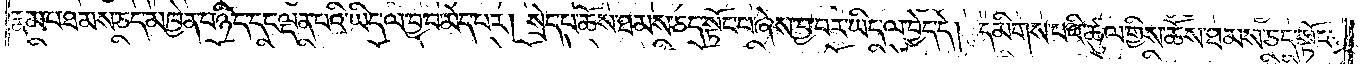རྣམ་པ་ཐམས་ཅད་མཁྱེན་པ་ཉིད་དང་ལྡན་པའི་ཡིད་ལ་བྱ་བ་མེད་པར། སྲེད་པ་ཆོས་ཐམས་ཅད་སྟོང་པ་ཞེས་བྱ་བར་ཡིད་ལ་བྱེད་དེ། དམིགས་པའི་ཚུལ་གྱིས་ཆོས་ཐམས་ཅད་སྟོང་
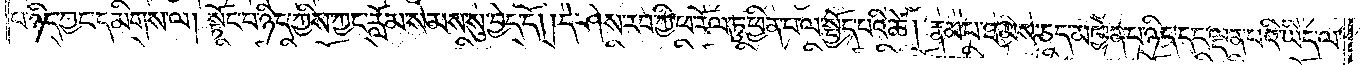པ་ཉིད་ཀྱང་དམིགས་ལ། སྟོང་པ་ཉིད་ཀྱིས་ཀྱང་རློམ་སེམས་སུ་བྱེད་དོ། །དེ་ཤེས་རབ་ཀྱི་ཕ་རོལ་ཏུ་ཕྱིན་པ་ལ་སྤྱོད་པའི་ཚེ། རྣམ་པ་ཐམས་ཅད་མཁྱེན་པ་ཉིད་དང་ལྡན་པའི་ཡིད་ལ་
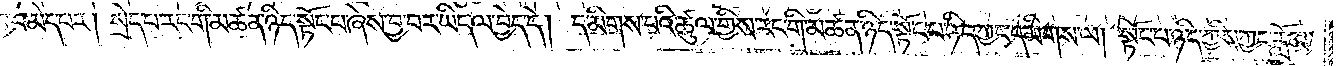བྱ་བ་མེད་པར། སྲེད་པ་རང་གི་མཚན་ཉིད་སྟོང་པ་ཞེས་བྱ་བར་ཡིད་ལ་བྱེད་དེ། དམིགས་པའི་ཚུལ་གྱིས་རང་གི་མཚན་ཉིད་སྟོང་པ་ཉིད་ཀྱང་དམིགས་ལ། སྟོང་པ་ཉིད་ཀྱིས་ཀྱང་རློམ་
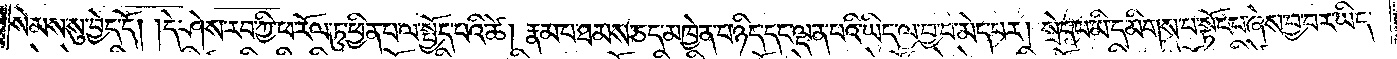སེམས་སུ་བྱེད་དོ། །དེ་ཤེས་རབ་ཀྱི་ཕ་རོལ་ཏུ་ཕྱིན་པ་ལ་སྤྱོད་པའི་ཚེ། རྣམ་པ་ཐམས་ཅད་མཁྱེན་པ་ཉིད་དང་ལྡན་པའི་ཡིད་ལ་བྱ་བ་མེད་པར། སྲེད་པ་མི་དམིགས་པ་སྟོང་པ་ཞེས་བྱ་བར་ཡིད་
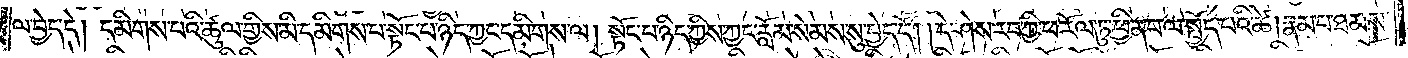ལ་བྱེད་དེ། དམིགས་པའི་ཚུལ་གྱིས་མི་དམིགས་པ་སྟོང་པ་ཉིད་ཀྱང་དམིགས་ལ། སྟོང་པ་ཉིད་ཀྱིས་ཀྱང་རློམ་སེམས་སུ་བྱེད་དོ། །དེ་ཤེས་རབ་ཀྱི་ཕ་རོལ་ཏུ་ཕྱིན་པ་ལ་སྤྱོད་པའི་ཚེ། རྣམ་པ་ཐམས་
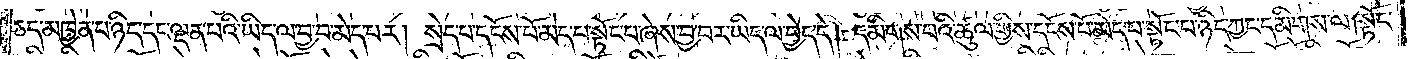ཅད་མཁྱེན་པ་ཉིད་དང་ལྡན་པའི་ཡིད་ལ་བྱ་བ་མེད་པར། སྲེད་པ་དངོས་པོ་མེད་པ་སྟོང་པ་ཞེས་བྱ་བར་ཡིད་ལ་བྱེད་དེ། དམིགས་པའི་ཚུལ་གྱིས་དངོས་པོ་མེད་པ་སྟོང་པ་ཉིད་ཀྱང་དམིགས་ལ། སྟོང་
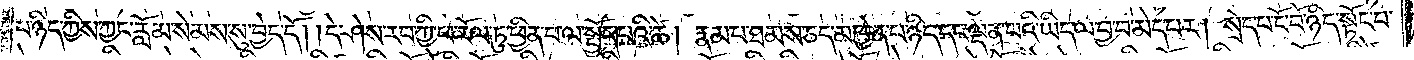པ་ཉིད་ཀྱིས་ཀྱང་རློམ་སེམས་སུ་བྱེད་དོ། །དེ་ཤེས་རབ་ཀྱི་ཕ་རོལ་ཏུ་ཕྱིན་པ་ལ་སྤྱོད་པའི་ཚེ། རྣམ་པ་ཐམས་ཅད་མཁྱེན་པ་ཉིད་དང་ལྡན་པའི་ཡིད་ལ་བྱ་བར་མེད་པར། སྲེད་པ་ངོ་བོ་ཉིད་སྟོང་པ་
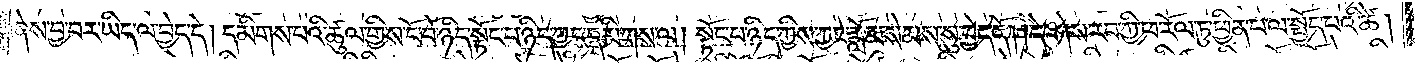ཞེས་བྱ་བར་ཡིད་ལ་བྱེད་དེ། དམིགས་པའི་ཚུལ་གྱིས་ངོ་བོ་ཉིད་སྟོང་པ་ཉིད་ཀྱང་དམིགས་ལ། སྟོང་པ་ཉིད་ཀྱིས་ཀྱང་རློམ་སེམས་སུ་བྱེད་དོ། །དེ་ཤེས་རབ་ཀྱི་ཕ་རོལ་ཏུ་ཕྱིན་པ་ལ་སྤྱོད་པའི་ཚེ།
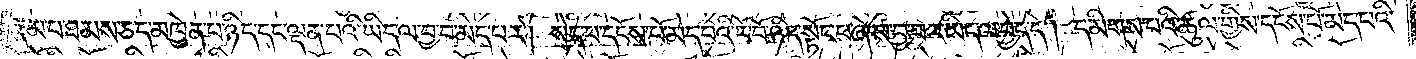རྣམ་པ་ཐམས་ཅད་མཁྱེན་པ་ཉིད་དང་ལྡན་པའི་ཡིད་ལ་བྱ་བ་མེད་པར། སྲེད་པ་དངོས་པོ་མེད་པའི་ངོ་བོ་ཉིད་སྟོང་པ་ཞེས་བྱ་བར་ཡིད་ལ་བྱེད་དེ། དམིགས་པའི་ཚུལ་གྱིས་དངོས་པོ་མེད་པའི་
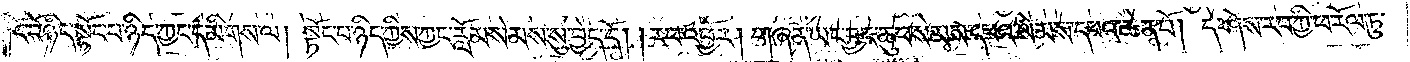ངོ་བོ་ཉིད་སྟོང་པ་ཉིད་ཀྱང་དེ་དམིགས་ལ། སྟོང་པ་ཉིད་ཀྱིས་ཀྱང་རློམ་སེམས་སུ་བྱེད་དོ། །རབ་འབྱོར། གཞན་ཡང་བྱང་ཆུབ་སེམས་དཔའ་སེམས་དཔའ་ཆེན་པོ། དེ་ཤེས་རབ་ཀྱི་ཕ་རོལ་ཏུ་
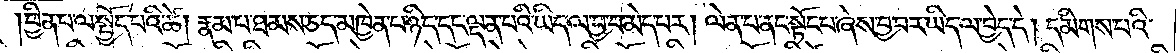ཕྱིན་པ་ལ་སྤྱོད་པའི་ཚེ། རྣམ་པ་ཐམས་ཅད་མཁྱེན་པ་ཉིད་དང་ལྡན་པའི་ཡིད་ལ་བྱ་བ་མེད་པར། ལེན་པ་ནང་སྟོང་པ་ཞེས་བྱ་བར་ཡིད་ལ་བྱེད་དེ། དམིགས་པའི་
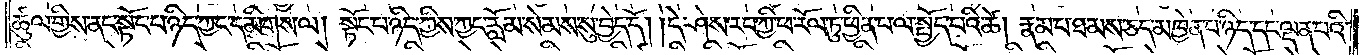ཚུལ་གྱིས་ནང་སྟོང་པ་ཉིད་ཀྱང་དམིགས་ལ། སྟོང་པ་ཉིད་ཀྱིས་ཀྱང་རློམ་སེམས་སུ་བྱེད་དོ། །དེ་ཤེས་རབ་ཀྱི་ཕ་རོལ་ཏུ་ཕྱིན་པ་ལ་སྤྱོད་པའི་ཚེ། རྣམ་པ་ཐམས་ཅད་མཁྱེན་པ་ཉིད་དང་ལྡན་པའི་
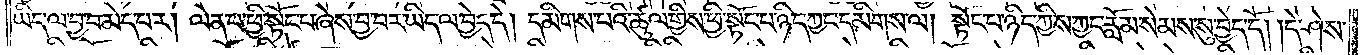ཡིད་ལ་བྱ་བ་མེད་པར། ལེན་པ་ཕྱི་སྟོང་པ་ཞེས་བྱ་བར་ཡིད་ལ་བྱེད་དེ། དམིགས་པའི་ཚུལ་གྱིས་ཕྱི་སྟོང་པ་ཉིད་ཀྱང་དམིགས་ལ། སྟོང་པ་ཉིད་ཀྱིས་ཀྱང་རློམ་སེམས་སུ་བྱེད་དོ། །དེ་ཤེས་
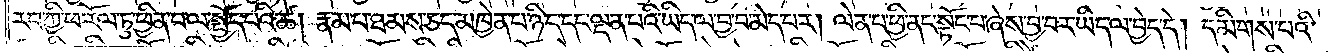རབ་ཀྱི་ཕ་རོལ་ཏུ་ཕྱིན་པ་ལ་སྤྱོད་པའི་ཚེ། རྣམ་པ་ཐམས་ཅད་མཁྱེན་པ་ཉིད་དང་ལྡན་པའི་ཡིད་ལ་བྱ་བ་མེད་པར། ལེན་པ་ཕྱི་ནང་སྟོང་པ་ཞེས་བྱ་བར་ཡིད་ལ་བྱེད་དེ། དམིགས་པའི་
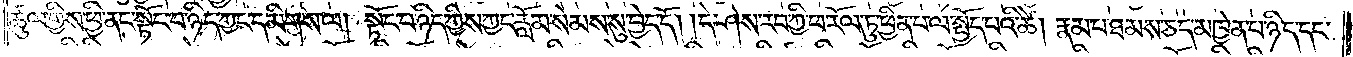ཚུལ་གྱིས་ཕྱི་ནང་སྟོང་པ་ཉིད་ཀྱང་དམིགས་ལ། སྟོང་པ་ཉིད་ཀྱིས་ཀྱང་རློམ་སེམས་སུ་བྱེད་དོ། །དེ་ཤེས་རབ་ཀྱི་ཕ་རོལ་ཏུ་ཕྱིན་པ་ལ་སྤྱོད་པའི་ཚེ། རྣམ་པ་ཐམས་ཅད་མཁྱེན་པ་ཉིད་དང་
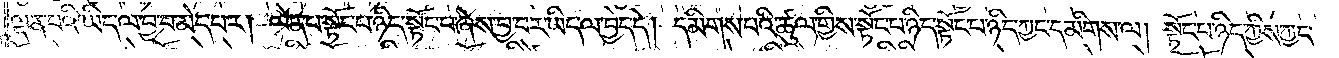ལྡན་པའི་ཡིད་ལ་བྱ་བ་མེད་པར། ལེན་པ་སྟོང་པ་ཉིད་སྟོང་པ་ཞེས་བྱ་བར་ཡིད་ལ་བྱེད་དེ། དམིགས་པའི་ཚུལ་གྱིས་སྟོང་པ་ཉིད་སྟོང་པ་ཉིད་ཀྱང་དམིགས་ལ། སྟོང་པ་ཉིད་ཀྱིས་ཀྱང་
